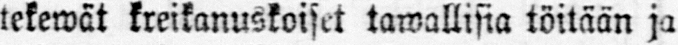tekewät kreikanuskoiset tawallisia töitään ja
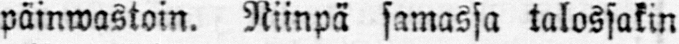päinwastoin. Niinpä samassa talossakin
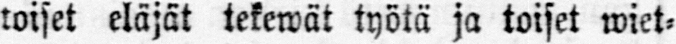toiset eläjät tekewät työtä ja toiset wiet-
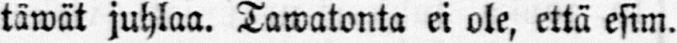täwät juhlaa. Tawatonta ei ole, että esim.
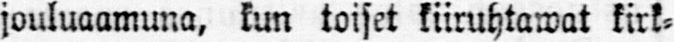jouluaamuna, kun toiset kiiruhtawat kirk-
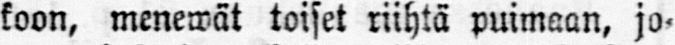koon, menewät toiset riihtä puimaan, jo-
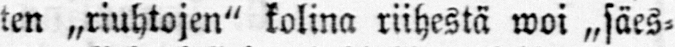ten „riuhtojen" kolina riihestä woi „säes-
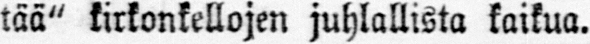tää" kirkonkellojen juhlallista kaikua.
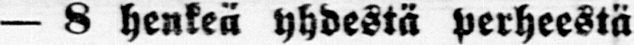— 8 henkeä yhdestä perheestä
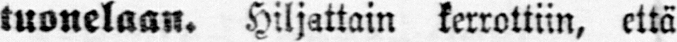tuonelaan. Hiljattain kerrottiin, että
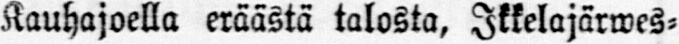Kauhajoella eräästä talosta, Ikkelajärwes-
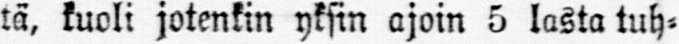tä, kuoli jotenkin yksin ajoin 5 lasta tuh-
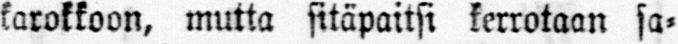karokkoon, mutta sitäpaitsi kerrotaan sa-
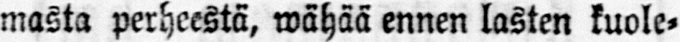masta perheestä, wähää ennen lasten kuole-
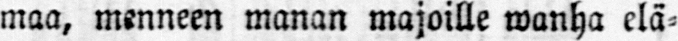maa, menneen manan majoille wanha elä-
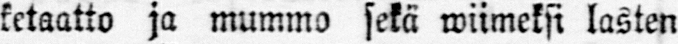ketaatto ja mummo sekä wiimeksi lasten
